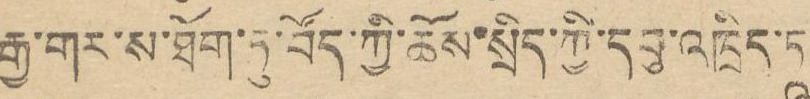རྒྱ་གར་ས་ཐོག་ཏུ་བོད་ཀྱི་ཆོས་སྲིད་ཀྱི་དབུ་འཁྲིད་ཏཱ
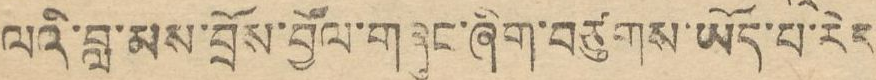ལའི་བླ་མས་བྲོས་བྱོལ་གཞུང་ཞིག་བཙུགས་ཡོད་པ་རེད
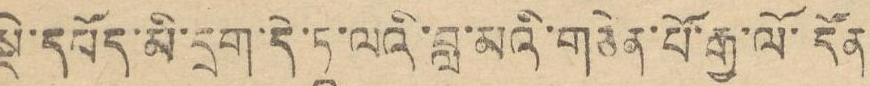སྡེ་དཔོན་མི་དྲག་དེ་ཏཱ་ལའི་བླ་མའི་གཅེན་པོ་རྒྱ་ལོ་དོན
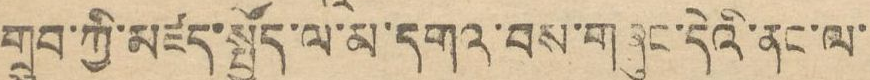གྲུབ་ཀྱི་མཛད་སྤྱོད་ལ་མ་དགའ་བས་གཞུང་དེའི་ནང་ལ་
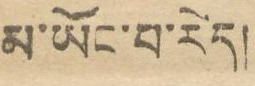མ་ཡོང་པ་རེད།
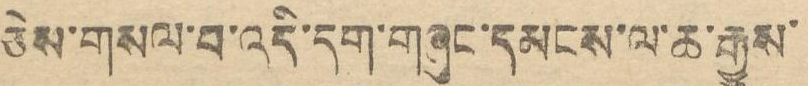ཅེས་གསལ་བ་འདི་དག་གཞུང་དམངས་ལ་ཆ་རྒྱུས་
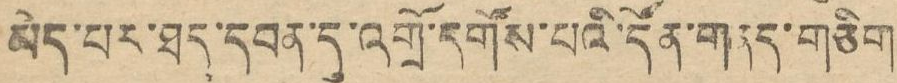མེད་པར་ཐད་དབན་དུ་འགྲོ་དགོས་པའི་དོན་གནད་གཅིག
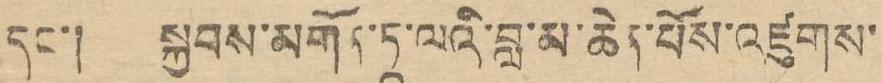དང་། སྐྱབས་མགོན་ཏཱ་ལའི་བླ་མ་ཆེན་པོས་འཛུགས་
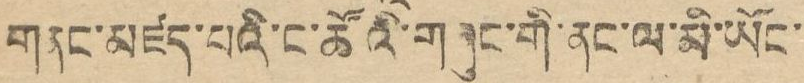གནང་མཛད་པའི་ང་ཚོའི་གཞུང་གི་ནང་ལ་མི་ཡོང་
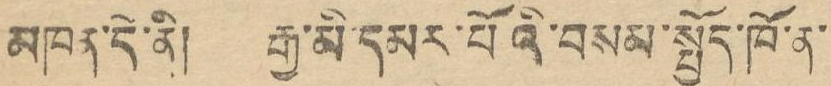མཁན་དེ་ནི། རྒྱ་མི་དམར་པོའི་བསམ་སྤྱོད་ཁོ་ན་
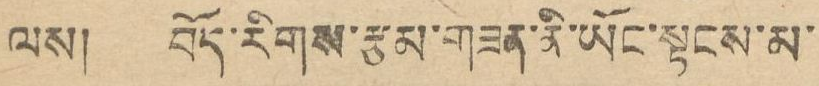ལས། བོད་རིགས་རྩམ་གཟན་ནི་ཡོང་སྟངས་མ་
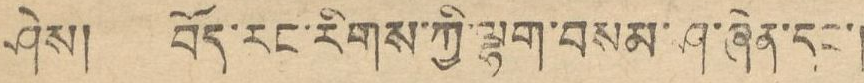ཤེས། བོད་རང་རིགས་ཀྱི་ལྷག་བསམ་ཤ་ཞེན་དང་།
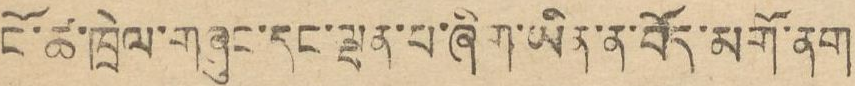ངོ་ཚ་ཁྲེལ་གཞུང་དང་ལྡན་པ་ཞིག་ཡིན་ན་བོད་མགོ་ནག
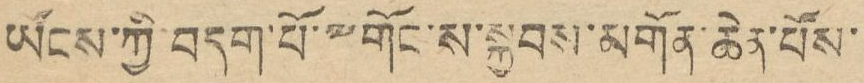ཡོངས་ཀྱི་བདག་པོ་༸གོང་ས་སྐྱབས་མགོན་ཆེན་པོས་
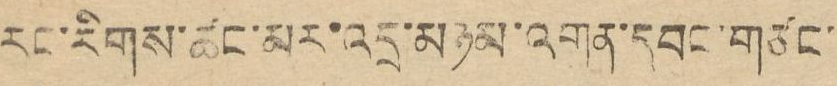རང་རིགས་ཚང་མར་འདྲ་མཉམ་འགན་དབང་གཙང་
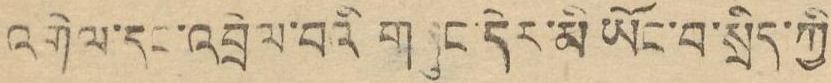འགེལ་དང་འབྲེལ་བའི གཞུང་དེར་མི ཡོང་བ་སྲིད་ཀྱི
